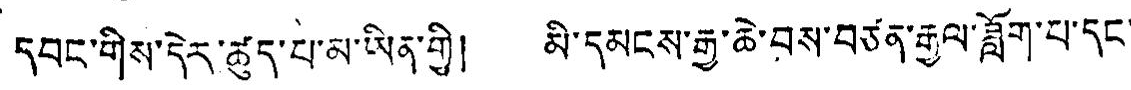དབང་གིས་དེར་ཚུད་པ་མ་ཡིན་གྱི། མི་དམངས་རྒྱ་ཆེ་བས་བཙན་རྒྱལ་ཟློག་པ་དང་
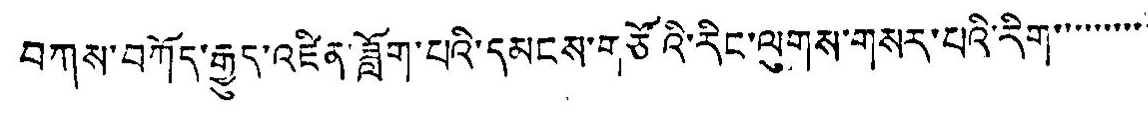བཀས་བཀོད་རྒྱུད་འཛིན་ཟློག་པའི་དམངས་གཙོའི་རིང་ལུགས་གསར་པའི་རིག་་་་་་་་་
